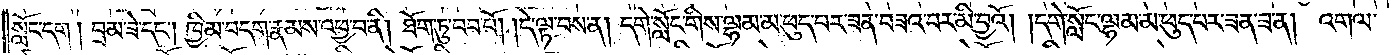སློང་དག །བྲམ་ཟེ་དང༌། ཁྱིམ་བདག་རྣམས་འཕྱ་བ་ནི། ཐོག་ཏུ་བབ་བོ། །དེ་ལྟ་བས་ན། དགེ་སློང་གིས་ལྷམ་མ་ཕུད་པར་ཟན་བཟའ་བར་མི་བྱའོ། །དགེ་སློང་ལྷམ་མ་ཕུད་པར་ཟན་ཟ་ན། འགལ་
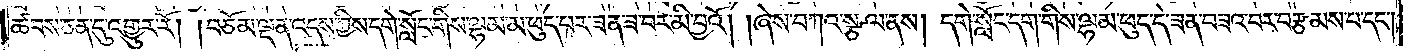ཚབས་ཅན་དུ་འགྱུར་རོ། །བཅོམ་ལྡན་འདས་ཀྱིས་དགེ་སློང་གིས་ལྷམ་མ་ཕུད་པར་ཟན་ཟ་བར་མི་བྱའོ། །ཞེས་བཀའ་སྩལ་ནས། དགེ་སློང་དག་གིས་ལྷམ་ཕུད་དེ་ཟན་བཟའ་བར་བརྩམས་པ་དང་།
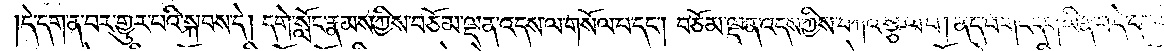དེ་དག་ན་བར་གྱུར་པའི་སྐབས་དེ། དགེ་སློང་རྣམས་ཀྱིས་བཅོམ་ལྡན་འདས་ལ་གསོལ་པ་དང༌། བཅོམ་ལྡན་འདས་ཀྱིས་བཀའ་སྩལ་པ། ནད་པ་གང་དག་ཡིན་པ་དེ་དག་གིས་
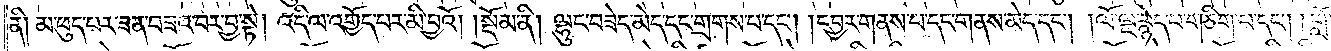ནི། མ་ཕུད་པར་ཟན་བཟའ་བར་བྱ་སྟེ། འདི་ལ་འགྱོད་པར་མི་བྱའོ།    །སྡོམ་ནི། ལྷུང་བཟེད་མེད་དང་གྲགས་པ་དང༌། །དབྱར་གནས་པ་དང་གནས་མེད་དང༌། །ལོ་ལྔ་རྙེད་པ་གཅིག་པ་དང༌། །གློ་
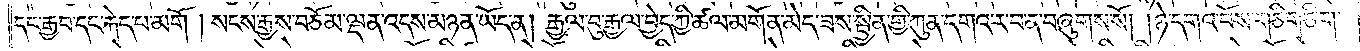དང་རྒྱབ་དང་རྐེད་པ་མགོ། སངས་རྒྱས་བཅོམ་ལྡན་འདས་མཉན་ཡོད་ན། རྒྱལ་བུ་རྒྱལ་བྱེད་ཀྱི་ཚལ་མགོན་མེད་ཟས་སྦྱིན་གྱི་ཀུན་དགའ་ར་བ་ན་བཞུགས་སོ། །ཉེ་དགའ་བོས་གཅིག་ཅིག་
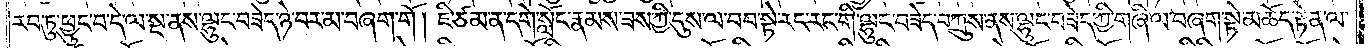རབ་ཏུ་ཕྱུང་བ་དེ་ལ་སྔ་ནས་ལྷུང་བཟེད་ཉེ་བར་མ་བཞག་གོ །ཇི་ཙམ་ན་དགེ་སློང་རྣམས་ཟས་ཀྱི་དུས་ལ་བབ་སྟེ་རང་རང་གི་ལྷུང་བཟེད་བཀྲུས་ནས་ལྷུང་བཟེད་ཀྱི་གཞི་ལ་བཞག་སྟེ་མཆོད་རྟེན་ལ་
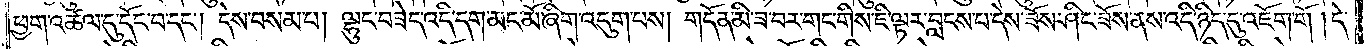ཕྱག་འཚལ་དུ་དོང་བ་དང༌། དེས་བསམ་པ། ལྷུང་བཟེད་འདི་དག་མང་མོ་ཞིག་འདུག་པས། གདོན་མི་ཟ་བར་གང་གིས་ཇི་ལྟར་བླངས་པ་དེས་ཟོས་ཤིང་ཟོས་ནས་འདི་ཉིད་དུ་འཇོག་གོ །དེ་
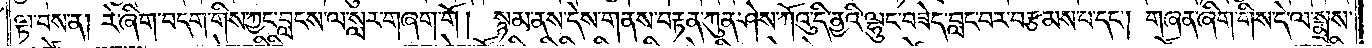ལྟ་བས་ན། རེ་ཞིག་བདག་གིས་ཀྱང་བླངས་ལ་སླར་གཞག་གོ །སྙམ་ནས་དེས་གནས་བརྟན་ཀུན་ཤེས་ཀོའུ་དི་ནྱའི་ལྷུང་བཟེད་བླང་བར་བརྩམས་པ་དང༌། གཞན་ཞིག་གིས་དེ་ལ་སྨྲས་
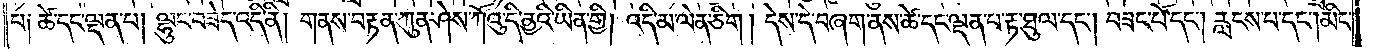པ༑ ཚེ་དང་ལྡན་པ། ལྷུང་བཟེད་འདི་ནི། གནས་བརྟན་ཀུན་ཤེས་ཀོའུ་དི་ནྱའི་ཡིན་གྱི། འདི་མ་ལེན་ཅིག །དེས་དེ་བཞག་ནས་ཚེ་དང་ལྡན་པ་རྟ་ཐུལ་དང༌། བཟང་པོ་དང༌། རླངས་པ་དང༌། མིང་
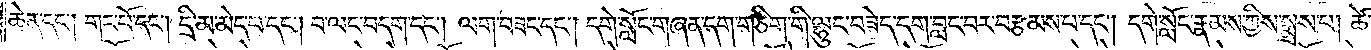ཆེན་དང༌། གང་པོ་དང༌། དྲི་མ་མེད་པ་དང༌། བ་ལང་བདག་དང༌། ལག་བཟང་དང༌། དགེ་སློང་གཞན་དག་གཅིག་གི་ལྷུང་བཟེད་དག་བླང་བར་བརྩམས་པ་དང༌། དགེ་སློང་རྣམས་ཀྱིས་སྨྲས་པ། ཚེ་
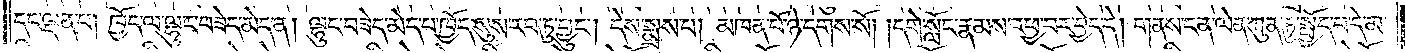དང་ལྡན་པ། ཁྱོད་ལ་ལྷུང་བཟེད་མེད་ན། ལྷུང་བཟེད་མེད་པ་ཁྱོད་སུས་རབ་ཏུ་བྱུང༌། དེས་སྨྲས་པ། མཁན་པོ་ཉེ་དགས་སོ། །དགེ་སློང་རྣམས་འཕྱ་བར་བྱེད་དེ། གནས་ངན་ལེན་ཀུན་ཏུ་སྤྱོད་པ་དེ་མ་
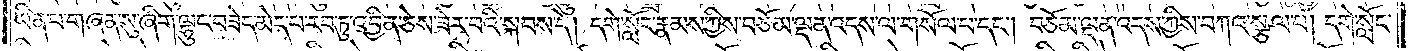ཡིན་པ་གཞན་སུ་ཞིག་ལྷུང་བཟེད་མེད་པ་རབ་ཏུ་འབྱིན་ཅེས་ཟེར་བའི་སྐབས་དེ། དགེ་སློང་རྣམས་ཀྱིས་བཅོམ་ལྡན་འདས་ལ་གསོལ་པ་དང༌། བཅོམ་ལྡན་འདས་ཀྱིས་བཀའ་སྩལ་པ། དགེ་སློང་
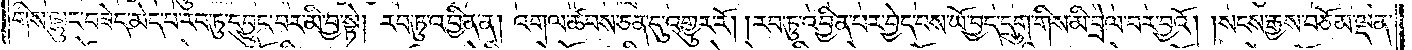གིས་ལྷུང་བཟེད་མེད་པ་རབ་ཏུ་དབྱུང་བར་མི་བྱ་སྟེ། རབ་ཏུ་འབྱིན་ན། འགལ་ཚབས་ཅན་དུ་འགྱུར་རོ། །རབ་ཏུ་འབྱིན་པར་བྱེད་པས་ཡོ་བྱད་དྲུག་གིས་མི་བྲེལ་བར་བྱའོ། །སངས་རྒྱས་བཅོམ་ལྡན་
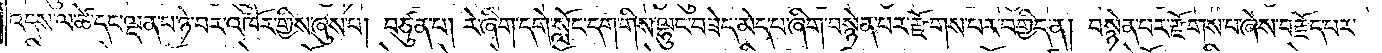འདས་ལ་ཚེ་དང་ལྡན་པ་ཉེ་བར་འཁོར་གྱིས་ཞུས་པ། བཙུན་པ། རེ་ཞིག་དགེ་སློང་དག་གིས་ལྷུང་བཟེད་མེད་པ་ཞིག་བསྙེན་པར་རྫོགས་པར་བགྱིད་ན། བསྙེན་པར་རྫོགས་པ་ཞེས་བརྗོད་པར་
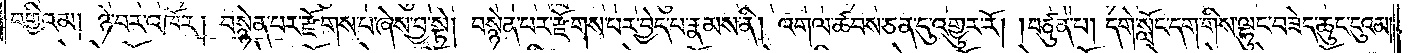བགྱིའམ། ཉེ་བར་འཁོར། བསྙེན་པར་རྫོགས་པ་ཞེས་བྱ་སྟེ། བསྙེན་པར་རྫོགས་པར་བྱེད་པ་རྣམས་ནི། འགལ་ཚབས་ཅན་དུ་འགྱུར་རོ། །བཙུན་པ། དགེ་སློང་དག་གིས་ལྷུང་བཟེད་ཆུང་ངུའམ།
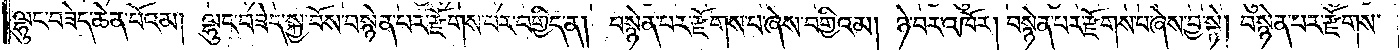ལྷུང་བཟེད་ཆེན་པོའམ། ལྷུང་བཟེད་སྐྱ་བོས་བསྙེན་པར་རྫོགས་པར་བགྱིད་ན། བསྙེན་པར་རྫོགས་པ་ཞེས་བགྱིའམ། ཉེ་བར་འཁོར། བསྙེན་པར་རྫོགས་པ་ཞེས་བྱ་སྟེ། བསྙེན་པར་རྫོགས་
